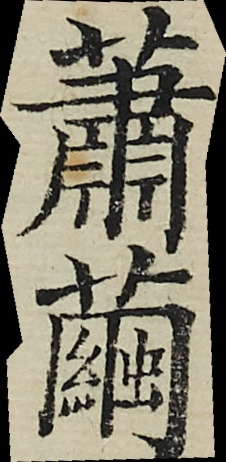蕭繭
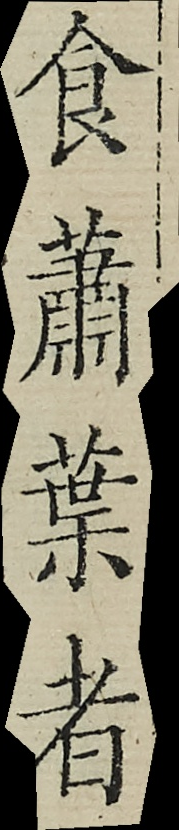食桑葉者
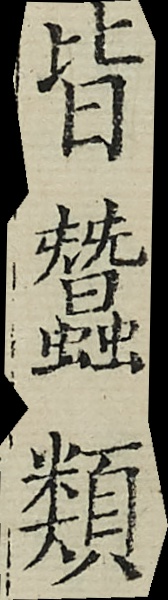皆蠶類
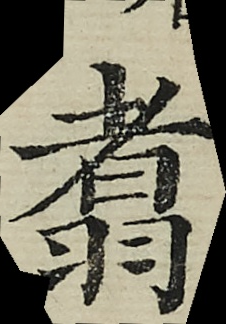翥
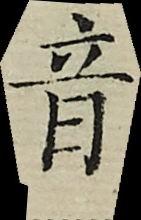音
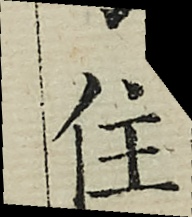住
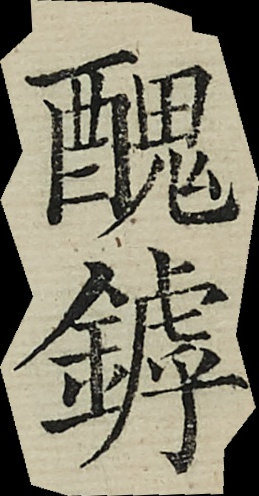醜鏬
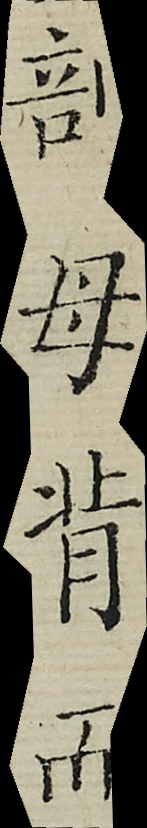剖母背而
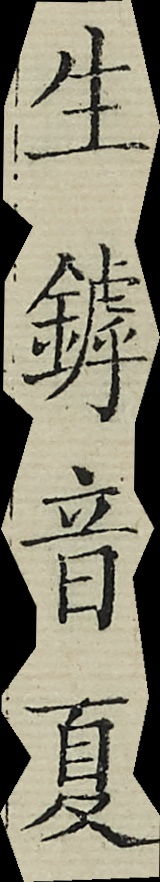生鏬音夏
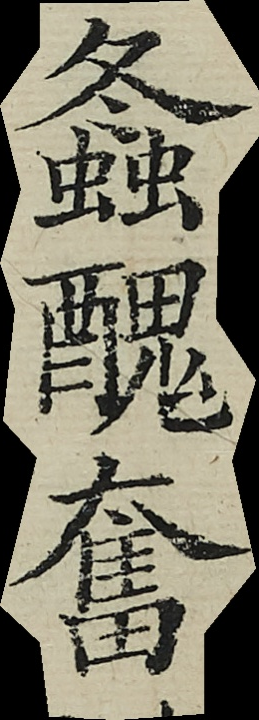螽醜奮
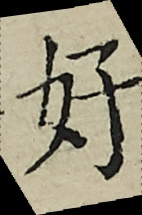好
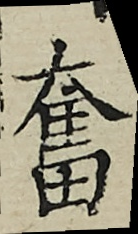奮
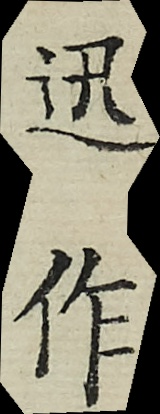迅作
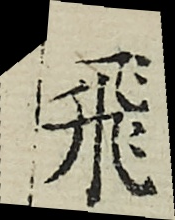飛
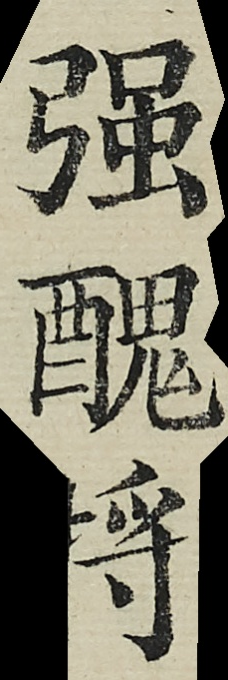強醜捋
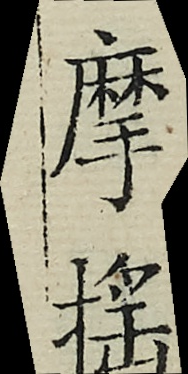摩捋
